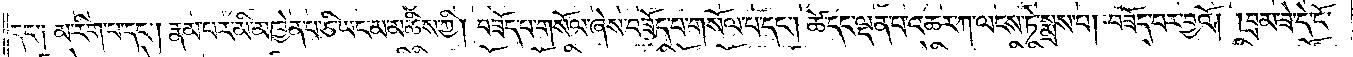དང་༑ མ་རིག་པ་དང༌། རྣམ་པར་མི་མཁྱེན་པ་ཅི་ཡང་མ་མཆིས་ཀྱི། བཟོད་པ་གསོལ་ཞེས་བཟོད་པ་གསོལ་པ་དང༌། ཚེ་དང་ལྡན་པ་འཆར་ཀ་ལངས་ཏེ་སྨྲས་པ། བཟོད་པར་བྱའོ། །བྲམ་ཟེ་དེ་ངོ་
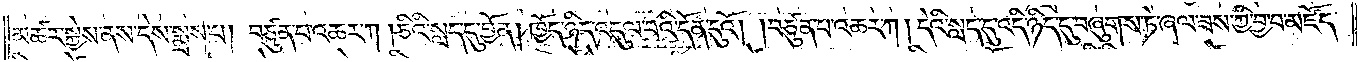མཚར་སྐྱེས་ནས་དེས་སྨྲས་པ། བཙུན་པ་འཆར་ཀ །ཅིའི་སླད་དུ་བྱོན། ཁྱོད་ཉིད་འདུལ་བའི་དོན་དུའོ། །བཙུན་པ་འཆར་ཀ །དེའི་སླད་དུ་འདི་ཉིད་དུ་བཞུགས་ཏེ་ཞལ་ཟས་ཀྱི་བྱ་བ་མཛོད་
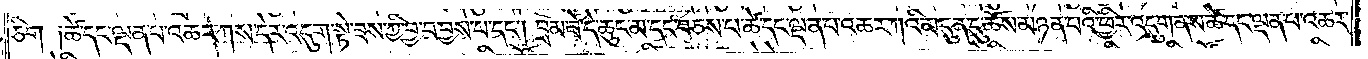ཅིག ༑ཚེ་དང་ལྡན་པ་འཆར་ཀས་དེར་འདུག་སྟེ་ཟས་ཀྱི་བྱ་བ་བྱས་པ་དང༌། བྲམ་ཟེ་དེ་ཆུང་མ་དང་བཅས་པ་ཚེ་དང་ལྡན་པ་འཆར་ཀའི་མདུན་དུ་ཆོས་མཉན་པའི་ཕྱིར་འདུག་ནས་ཚེ་དང་ལྡན་པ་འཆར་
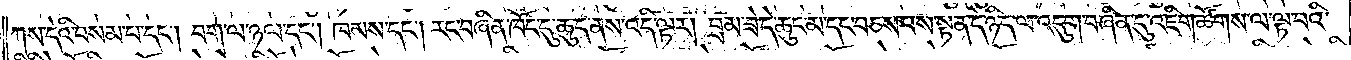ཀས་དེའི་བསམ་པ་དང༌། བག་ལ་ཉལ་དང༌། ཁམས་དང༌། རང་བཞིན་ཁོང་དུ་ཆུད་ནས་འདི་ལྟར། བྲམ་ཟེ་དེ་ཆུང་མ་དང་བཅས་པས་སྟན་དེ་ཉིད་ལ་འདུག་བཞིན་དུ་འཇིག་ཚོགས་ལ་ལྟ་བའི་
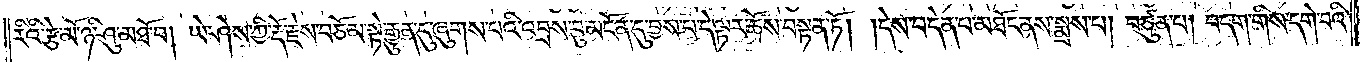རིའི་རྩེ་མོ་ཉི་ཤུ་མཐོ་བ། ཡེ་ཤེས་ཀྱི་རྡོ་རྗེས་བཅོམ་སྟེ་རྒྱུན་དུ་ཞུགས་པའི་འབྲས་བུ་མངོན་དུ་བྱས་པ་དེ་ལྟར་ཆོས་བསྟན་ཏོ། །དེས་བདེན་པ་མཐོང་ནས་སྨྲས་པ། བཙུན་པ། བདག་གིས་དགེ་བའི་
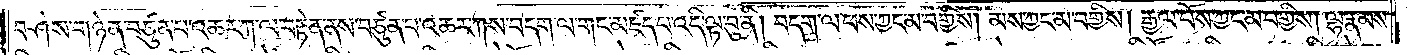བཤེས་གཉེན་བཙུན་པ་འཆར་ཀ་ལ་བརྟེན་ནས་བཙུན་པ་འཆར་ཀས་བདག་ལ་གང་མཛད་པ་འདི་ལྟ་བུ་ནི། བདག་ལ་ཕས་ཀྱང་མ་བགྱིས། མས་ཀྱང་མ་བགྱིས། རྒྱལ་པོས་ཀྱང་མ་བགྱིས། ལྷ་རྣམས་
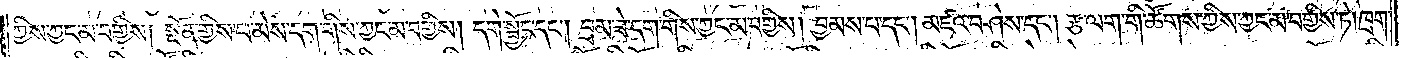ཀྱིས་ཀྱང་མ་བགྱིས། སྔོན་གྱིས་ཕ་མེས་དག་གིས་ཀྱང་མ་བགྱིས། དགེ་སྦྱོང་དང༌། བྲམ་ཟེ་དག་གིས་ཀྱང་མ་བགྱིས། བྱམས་པ་དང༌། མཛའ་བཤེས་དང༌། རྩ་ལག་གི་ཚོགས་ཀྱིས་ཀྱང་མ་བགྱིས་ཏེ། ཁྲག་
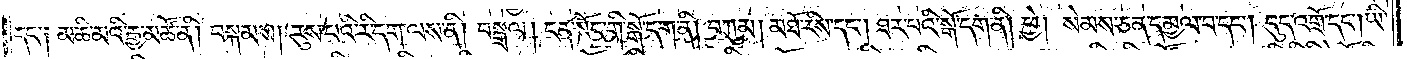དང་༑ མཆི་མའི་རྒྱ་མཚོ་ནི། བསྐམས། རུས་པའི་རི་དག་ལས་ནི། བསྒྲལ། ངན་སོང་གི་སྒོ་དག་ནི། བཀུམ། མཐོ་རིས་དང༌། ཐར་པའི་སྒོ་དག་ནི། ཕྱེ། སེམས་ཅན་དམྱལ་བ་དང༌། དུད་འགྲོ་དང༌། ཡི་
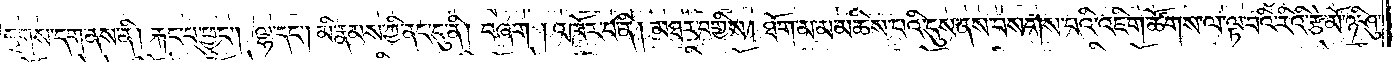དྭགས་དག་ནས་ནི། རྐང་པ་ཕྱུང༌། ལྷ་དང༌། མི་རྣམས་ཀྱི་ནང་དུ་ནི། བཞག །འཁོར་བ་ནི། མཐར་བགྱིས། ཐོག་མ་མ་མཆིས་པའི་དུས་ནས་བསགས་པའི་འཇིག་ཚོགས་ལ་ལྟ་བའི་རིའི་རྩེ་མོ་ཉི་ཤུ་
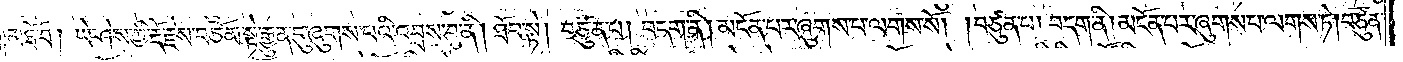མཐོ་བ། ཡེ་ཤེས་ཀྱི་རྡོ་རྗེས་བཅོམ་སྟེ་རྒྱུན་དུ་ཞུགས་པའི་འབྲས་བུ་ནི། ཐོབ་སྟེ། བཙུན་པ། བདག་ནི། མངོན་པར་ཞུགས་པ་ལགས་སོ། །བཙུན་པ། བདག་ནི། མངོན་པར་ཞུགས་པ་ལགས་ཏེ། བཙུན་
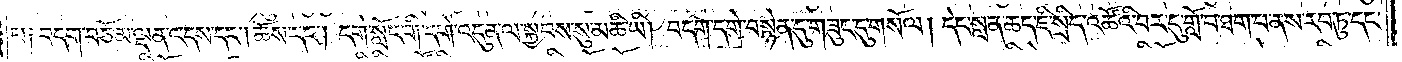པ༑ བདག་བཅོམ་ལྡན་འདས་དང༌། ཆོས་དང༌། དགེ་སློང་གི་དགེ་འདུན་ལ་སྐྱབས་སུ་མཆི་ཡི། བདག་དགེ་བསྙེན་དུ་གཟུང་དུ་གསོལ། དེང་སླད་ཆད་ཇི་སྲིད་འཚོའི་བར་དུ་གློ་བ་ཐག་པ་ནས་རབ་ཏུ་དང་
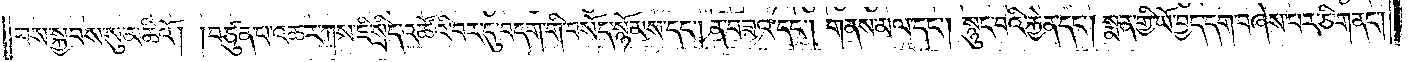བས་སྐྱབས་སུ་མཆིའོ། །བཙུན་པ་འཆར་ཀས་ཇི་སྲིད་འཚོའི་བར་དུ་བདག་གི་བསོད་སྙོམས་དང༌། ན་བཟའ་དང༌། གནས་མལ་དང༌། སྙུང་བའི་རྐྱེན་དང༌། སྨན་གྱི་ཡོ་བྱད་དག་བཞེས་པར་ཅི་གནང༌།
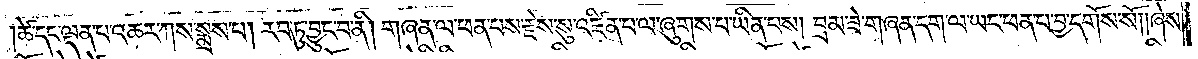ཚེ་དང་ལྡན་པ་འཆར་ཀས་སྨྲས་པ། རབ་ཏུ་བྱུང་བ་ནི། གཞན་ལ་ཕན་པས་རྗེས་སུ་འཛིན་པ་ལ་ཞུགས་པ་ཡིན་པས། བྲམ་ཟེ་གཞན་དག་ལ་ཡང་ཕན་པ་བྱ་དགོས་སོ། །ཞེས་
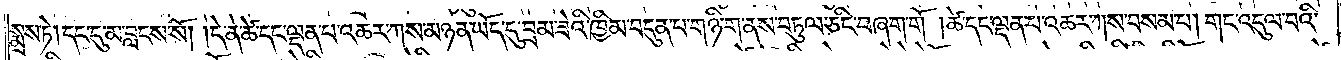སྨྲས་ཏེ། དང་དུ་མ་བླངས་སོ། །དེ་ན་ཚེ་དང་ལྡན་པ་འཆར་ཀས་མཉན་ཡོད་དུ་བྲམ་ཟེའི་ཁྱིམ་བདུན་པ་གཉི་ག་ནས་བཏུལ་ཅིང་བཞག་གོ །ཚེ་དང་ལྡན་པ་འཆར་ཀས་བསམ་པ། གང་འདུལ་བའི་
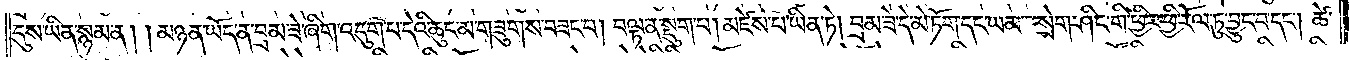དུས་ཡིན་སྙམ་ན། །མཉན་ཡོད་ན་བྲམ་ཟེ་ཞིག་འདུག་པ་དེའི་ཆུང་མ་གཟུགས་བཟང་བ། བལྟ་ན་སྡུག་པ། མཛེས་པ་ཡིན་ཏེ། བྲམ་ཟེ་དེ་མེ་ཏོག་དང་ཡམ་སྲེག་ཤིང་གི་ཕྱིར་ཕྱི་རོལ་ཏུ་བྱུང་བ་དང༌། ཚེ་
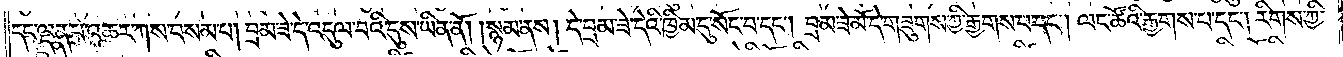དང་ལྡན་པ་འཆར་ཀས་བསམ་པ། བྲམ་ཟེ་དེ་འདུལ་བའི་དུས་ཡིན་ནོ། །སྙམ་ནས། དེ་བྲམ་ཟེ་དེའི་ཁྱིམ་དུ་སོང་བ་དང༌། བྲམ་ཟེ་མོ་དེ་གཟུགས་ཀྱི་རྒྱགས་པ་དང༌། ལང་ཚོའི་རྒྱགས་པ་དང༌། རིགས་ཀྱི་
